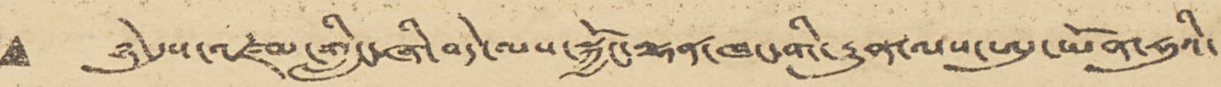• ཉེ་དུས་འཛམ་གླིང་ཞི་བདེ་ལས་སྐྱོང་ལྷན་ཁང་གི་རྒྱུན་ལས་ཨུ་ཡོན་ཧུའི་
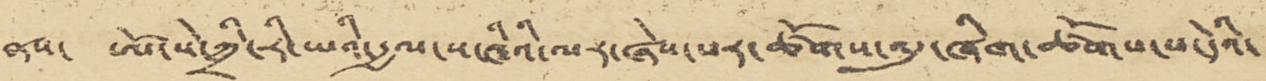ནས་ ཨོ་སེ་ཀྲི་རི་ཡའི་རྒྱལ་ས་ཝིའི་ལར་ཞེས་པར་ཚོགས་འདུ་ཞིག་ཚོགས་པ་དེའི་
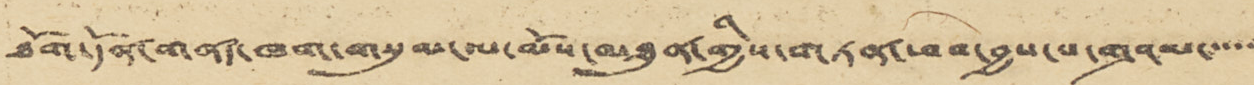ཐོག་དོན་གནད་ཁག་གསུམ་ལ་མོས་མཐུན་གྱིས་གཏན་ཕབ་བྱས་པ་གཤམ་་་་་
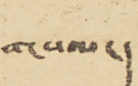གསལ་།
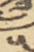༥
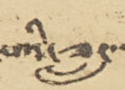པའི་ཟླ་་་་
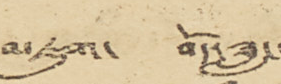མཇུག་ བོད་ཟླ་
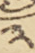༣
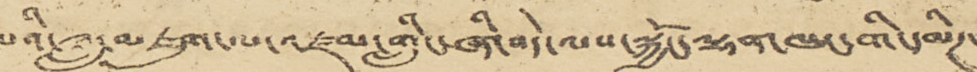པའི་ཟླ་མཇུག་ལ་འཛམ་གླིང་ཞི་བདེ་ལས་སྐྱོང་ལྷན་ཁང་གི་དམིཊ་
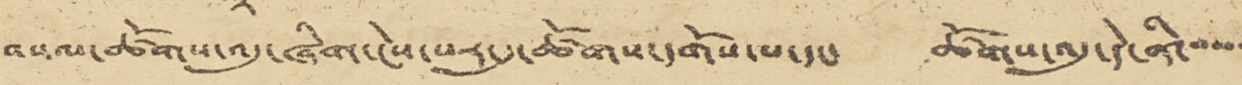བསལ་ཚོགས་འདུ་ཞིག་ངེས་པར་དུ་ཚོགས་དགོས་པ་དང་ ཚོགས་འདུ་དེ་ནི་་་་་
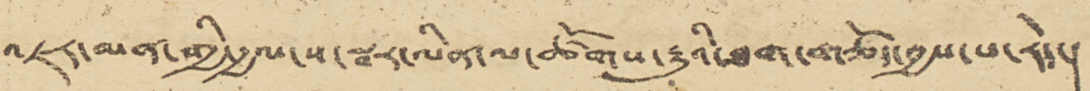འཇར་མན་གྱི་རྒྱལ་ས་སྦར་ལིན་ལ་ཚོགས་རྒྱུའི་ཐག་གཅོད་བྱས་པ་རེད་།
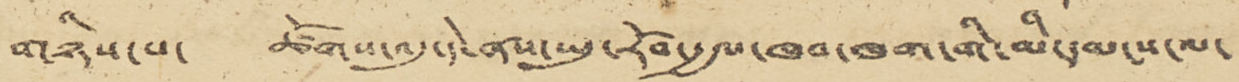གཉིས་པ་ ཚོགས་འདུ་དེ་ནས་ཡུ་རོབ་རྒྱལ་ཁབ་ཁག་གི་མི་དམངས་ལ་
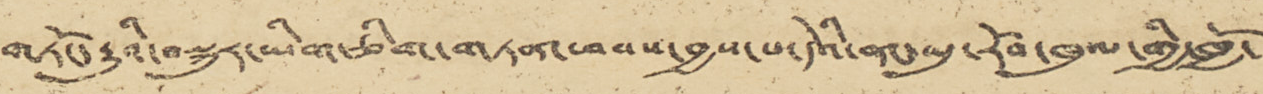གཏོང་རྒྱུའི་བསྐུར་ཡིག་ཅིག་གཏན་ཕབས་བྱས་པ་དེའི་ནང་ཡུ་རོབ་ཁུལ་གྱི་ཁྱོ་
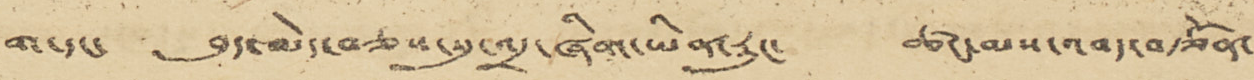ག་དང་ བུད་མེད་བཅས་སུ་འདྲ་ཞིག་ཡིན་རུང་ ཚང་མས་འབད་བརྩོན་
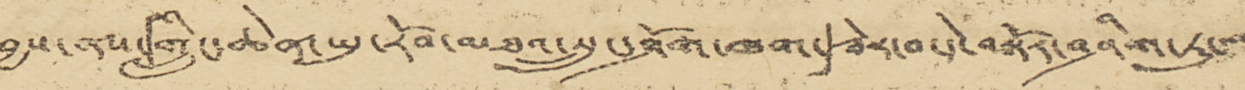བྱས་ནས་「གླིང་ཆེན་ཡུ་རོབ་མཐའ་སྲུང་ཤོག་ཁག་」ཟེར་བ་དེ་བསྟོར་བཤིག་ཏུ་་་
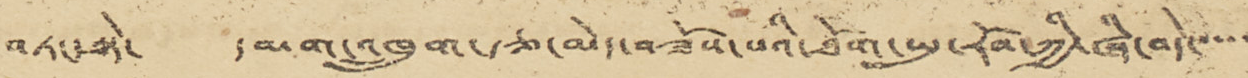བཏང་སྟེ་ དམག་འཁྲུག་རྩ་མེད་བཟོས་པའི་ཐོག་ཡུ་རོབ་ཀྱི་ཞི་བདེ་་་་་
